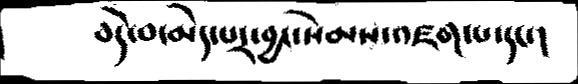བདེ་བ་མེད་པར་བྱང་སེམས་འཛག་པ་དང་།
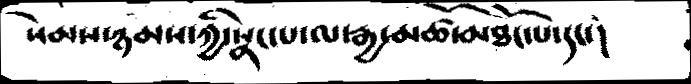སེམས་ཉམས་ཀྱི་སྣང་པ་ལ་རྒྱ་མཚོ་མཐོང་པ་དང་།
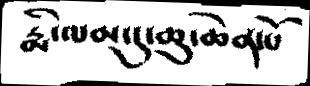རྨི་ལམ་དུ་ཆུ་ཆེན་པོ
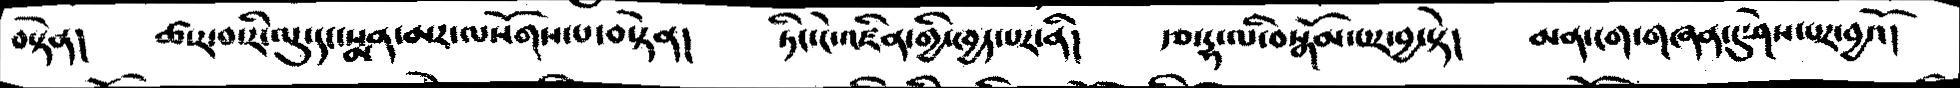བསྟེན།   ཚ་ར་བ་རི་ལུ་དང་སྨན་མར་ལསོགས་པ་བསྟེན།   ཏིང་ངེ་འཛིན་གྱི་ཁྱད་པར་ནི།    རྩ་དྷ་ལི་བསྒོམ་པར་བྱ་སྟེ།    མན་ངག་གཞན་དུ་ཤེས་པར་བྱའོ།
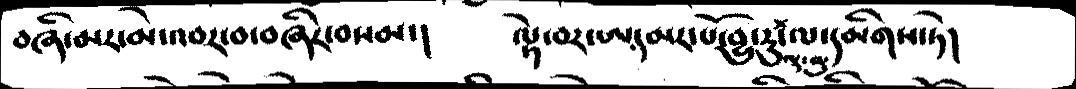བཞི་མར་མེ་འབར་བ་བཞིར་བསམ་།   ལྟེ་བར་ཨ་དམར་པོ་བྱུ་རུ་ལྟ་བུ་ལ་དམིགས་ཏེ།
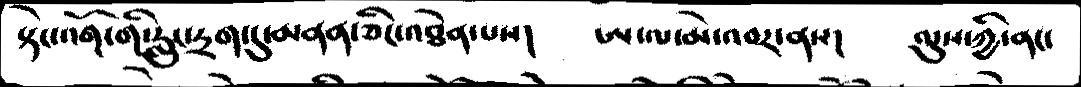སྟེང་འགོ་གི་རླུང་དྲག་དུ་མནན་ཅིང་འཐེན་པས།    ཨ་ལ་མེ་འབར་ནས།   ལུས་ཀྱི་ནང་
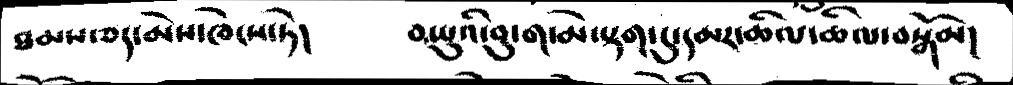ཐམས་ཅད་མེས་ཁེངས་ཏེ།   བསྤུའི་བུ་ག་མེ་སྟག་དུ་དམར་ཆིལ་ཆིལ་བསྒོམ།
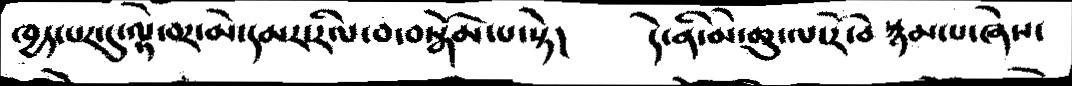ཁྱད་པར་དུ་ལྟེ་བར་མེ་དམར་རིལ་བ་བསྒོམ་པ་སྟེ།        དེ་ནི་མེ་ཆུ་ལ་རེ་བེ སྙམ་པ་ཞེས་
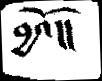བྱའོ།།
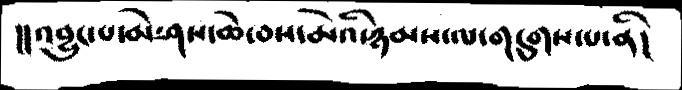།།འབྱུང་པ་མེ་ཤས་ཆེ་བས་མེའི་ཉམས་ལ་གདུགས་པ་ནི།
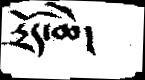དྲོད་ཆེ།
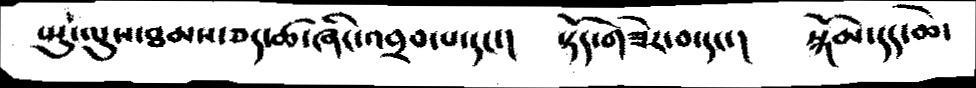སྤུ་ལུས་ཐམས་ཅད་ཚ་ཞིང་འབྲབ་པ་དང་།    སྟོད་གཟེར་བ་དང་།     སྐོམ་དད་ཆེ་
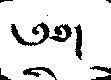༄༅།
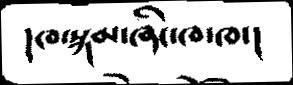།ཁ་སྐམ་ཞིང་ཁ་ཁ་།
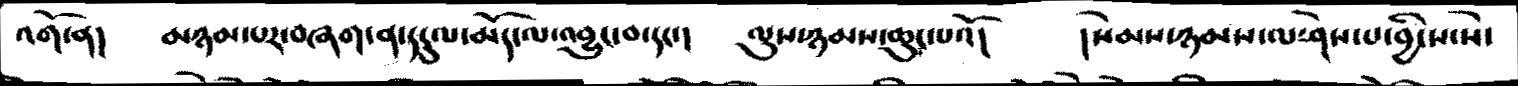འགོ་ན།   མཉམ་པར་བཞག་ན་དངུལ་མདོ་ལ་འབྱུང་བ་དང་།   ལུས་ཉམས་ཆུང་པའོ།    །སེམས་ཉམས་ལ་ཤེས་པ་བྱི་ས་སེ་
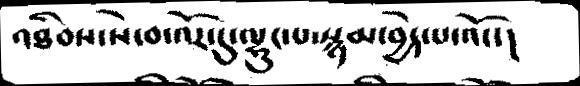འཐིབས་སེ་བ་འོར་དུ་ལྷུང་པ་སྙམ་བྱེད་པ་འོང་།
